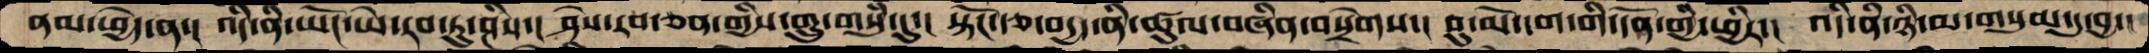ནམ་ཕྱེད་ན་།  འདི་ནི་ཡོང་ཡེ་རབ་ཏུ་ཤིས་།  ཤེས་རབ་ཅན་གྱིས་གྲུ་གསུཾ་དུ་།  སྟོང་རྩ་བདྱད་ནི་ཚུལ་བཞིན་བསྲེགས་།  བུ་མོ་དག་གི་དོན་གྱི་ཕྱིར་།  འདི་ནི་ཉི་མ་གསུམ་དུ་བྱ་།
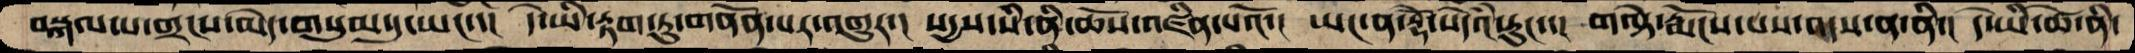བསྐལ་པ་གྲངས་མེད་གསུམ་དུ་ཡང་་།  དེ་ཡི་རྟག་ཏུ་གནོན་པར་འགྱུར་།  སདྱས་སི་ནི་ཆོས་འཛིན་པའོ་།  ཡང་ན་རྡོེ་སེདའཾ་རུང་་།  གལྟེ་རྨོངས་པས་འདས་ན་ནི་།  དེ་ཡི་ཚེ་ནི་
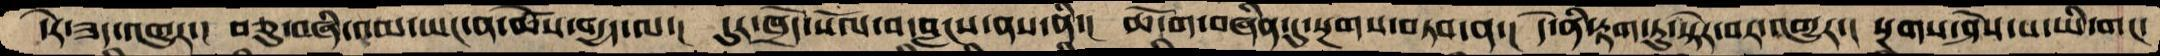དེར་ཟད་འགྱུར་།  བཅུ་བཞི་འམ་ཡང་ན་ཚེས་བདྱད་ལ་།  དུར་ཁྲོད་སོལ་བ་བླངས་ནས་ནི་།  ཆོ་ག་བཞིན་དུ་སྔགས་བཏབ་ན་།  དེ་ནི་རྟག་ཏུ་སྟེར་བར་འགྱུར་།  སྔགས་ཤེས་པ་ཡི་གང་
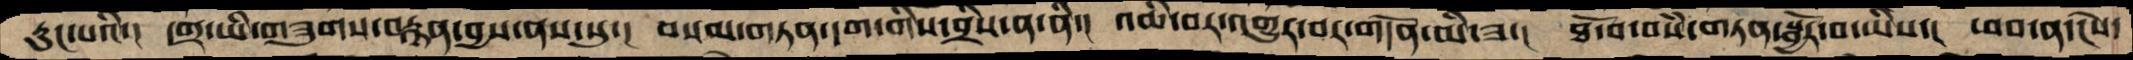རུང་པའི་།   དགྲ་ཡི་གཟུགས་བརྙན་བྱས་ནས་སུ་།  བསམ་གཏན་དག་གིས་བྲིས་ན་ནི་།  འཆི་བར་འགྱུར་བར་གདོན་མི་ཟ་།   ཐོ་བ་བསཾ་གཏན་སྦྱོར་བ་ཡིས་།  ཕབ་ན་ངེས་
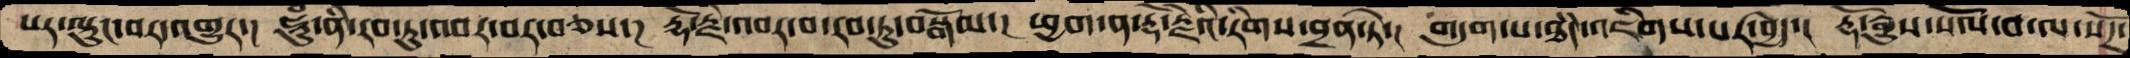པར་ལྟུང་བར་འགྱུར་།  ཧཱུཾ་ནི་རབ་ཏུ་འབར་བར་བཅས་། རྡོ་རྗེ་འབར་བ་རབ་ཏུ་བསྒོམ་།  ཕྱག་ན་རྡོ་རྗེའི་རིགས་བྲན་ཏེ་།  གདུག་པ་ཐཾད་འཇིགས་པར་བྱེད་།  རྡོ་རྒྱུས་སོལ་བ་ལ་སོཌ་
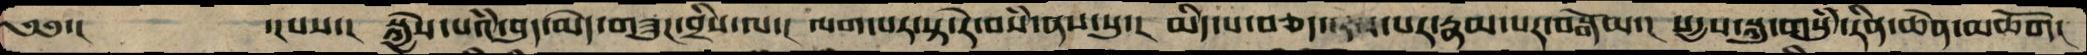༄༅་།        ་།པས་།   སྐྱེས་པའི་བུད་མེད་གཟུཌ་བྲིས་ལ་།  ལག་པར་སྟ་རེ་བསཾ་ནས་སུ་།  མིད་པ་བཅད་   པར་རྣམ་པར་བསྒོམ་།  སདྱས་སྐུ་གསུཾ་རིན་ཆེན་མཆོག།
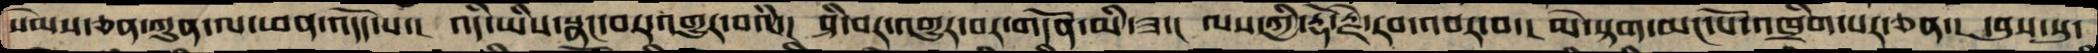སེམས་ཅན་ཀུན་ལ་ཕན་འདོད་པ་།  འདི་ཡིས་སྣང་བར་འགྱུར་བའི་།  ཤི་བར་འགྱུར་བར་གདོན་མི་ཟ་།  ལས་ཀྱི་རྡོ་རྗེ་རབ་འབར་བ་།  མེ་སྟག་མང་པོ་འཁྲིག་པར་ཅན་།  དབུས་སུ་
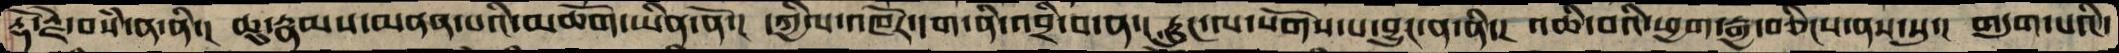རྡོ་རྗེ་བསཾ་ན་ནི་།  ཆུ་རྣམས་མནན་པའི་མཆོག་ཡིན་ནོ་།  དཀྱིལ་འཁོར་དག་ནི་འབྲི་བ་ན་།  རླུང་ལ་སོགས་པ་བྱུང་ན་ནི་།  འཆི་བའི་ཕྱག་རྒྱ་བཅིངས་ནས་སུ་།  གདུག་པའི་
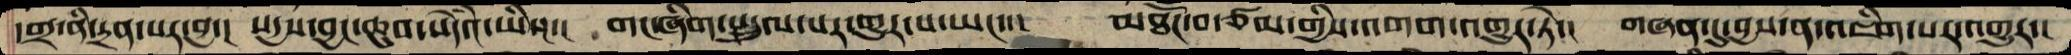དགྲ་ནི་དྲན་པར་བྱ་།  སདྱས་བྱང་ཆུབ་སེདའཾ་ཡིན་།  གང་ཞིག་སྤྲུལ་པར་གྱུར་པ་ཡང་་།  མཐོང་བ་ཙམ་གྱིས་འགག་འགྱུར་ཏེ་།  གཞན་དུ་བྱས་ན་འཇིག་པར་འགྱུར་།
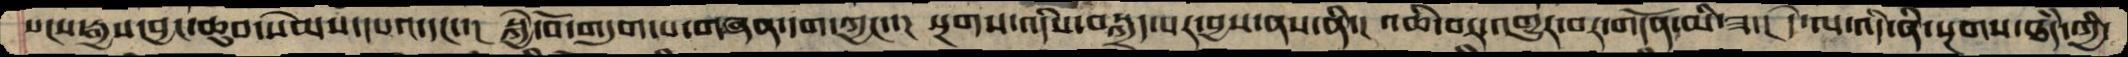སངས་རྒྱས་བྱང་ཆུབ་སེམས་དཔའ་དང་་།  སྐྱེ་བོ་གདུག་པ་གཞན་དག་ཀྱང་་།  སྔགས་འདིས་བསྐྲད་པར་བྱས་ནས་ནི་།  འཆི་བར་འགྱུར་བར་གདོན་མི་ཟ་།  དེ་ལ་འདི་ནི་སྔགས་ཐཾད་ཀྱི་
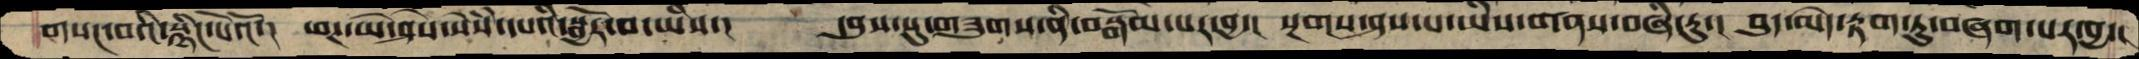གསང་བའི་སྙིང་པོའོ་།  ཕཊ་ཡེ་ཤེས་སེཾས་དཔའི་སྦྱོར་བ་ཡིས་།  དབུས་སུ་གཟུགས་ནི་བསྒོམ་པར་བྱ་།  སྔགས་ཤས་པ་ཡིས་གནས་བཞི་རུ་།  བུད་མེད་རྟག་ཏུ་བཞག་པར་བྱ་།
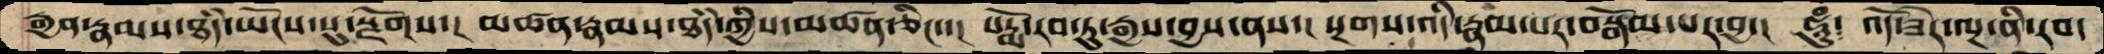རྒྱན་རྣམས་ཐཾད་ཡོངས་སུ་སྫོགས་།  མཚན་རྣམས་ཐཾད་ཀྱིས་མཚན་ཅིང་་།  པདྨོ་རབ་ཏུ་རྒྱས་བྱས་ནས་།  སྔགས་འདི་རྣམ་པར་བསྒོམ་པར་བྱ་།   ཧཱུཾ༴ འོད་ཟེར་ལྔ་ནི་རབ་
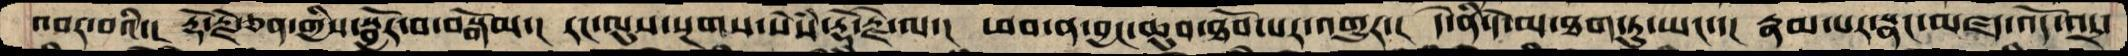འབར་བའི་།  རྡོ་རྗེ་ཅན་གྱིས་སྦྱོར་བ་བསྒོམ་།  རང་ལུས་སྔགས་སེཾས་རྡོ་རྗེ་ལ་།  ཕབ་ན་བྱང་ཆུབ་ཐོབ་པར་འགྱུར་།  དེ་ནི་དེ་མ་ཐག་ཏུ་ཡང་་།  རྣམ་པར་སྣང་མཛད་འོད་འདྲ་
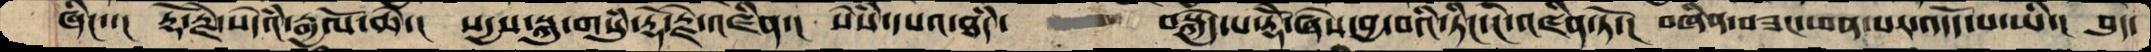ཞིང་་།   རྡོ་རྗེ་སེདའཾ་རྒྱལོ་ཆེ་།  སདྱས་སྐུ་གསུཾ་རྡོ་རྗེ་འཛིན་།  སེཾས་དཔའ་ཐཾད་    བསྐྱེད་པ་རྡོེ་ཞེས་བྱ་བའི་ཏིང་ངེ་འཛིན་ཏོ་།  བཞིན་བཟང་ཕན་པར་འདོད་པ་ཡི་།  བུད་
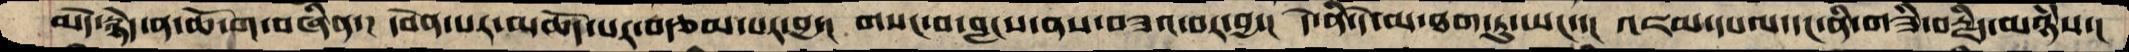མེད་སྙེད་ན་ཆོ་ག་བཞིན་།  དབེན་པར་མཆོད་པར་བརྩམ་པར་བྱ་།  གསང་བ་བླངས་ནས་བཟའ་བར་བྱ་།  དེ་ནི་དེ་མ་ཐག་ཏུ་ཡང་་།  འཇམ་དཔལ་དང་ནི་གཟི་བརྗིད་མཉཾས་།
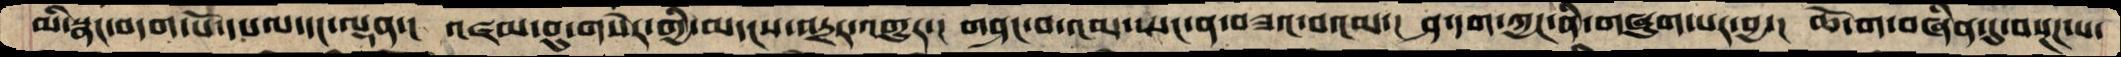མི་སྣང་བདག་པོ་དཔལ་དང་ལྡན་།  འཛམ་བུ་གསེར་གྱི་མདངས་འདྲར་འགྱུར་།  གཤང་བ་འམ་ཡང་ན་བཟའ་བའམ་།  ཤ་དག་ཀྱང་ནི་གཞུག་པར་བྱ་།  ཆོ་ག་བཞིན་དུ་བསྔཌ་པ་
